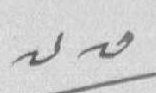༧༧
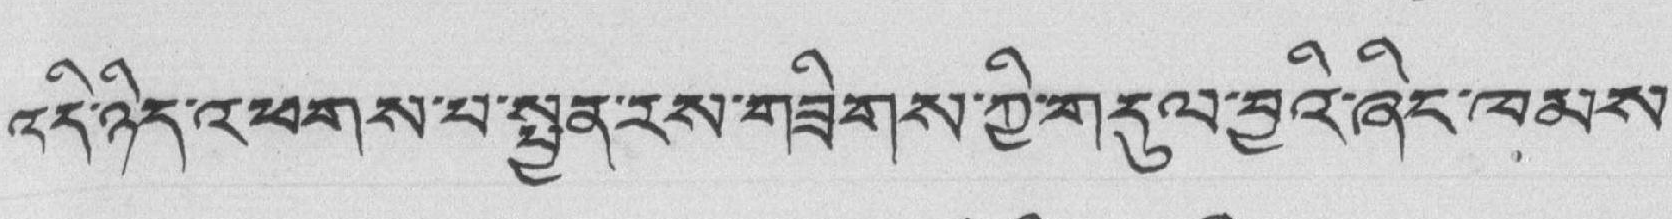འདི་ཉིད་འཕགས་པ་སྦྱན་རས་གཟིགས་ཀྱི་གདུལ་བྱའི་ཞིང་ཁམས་
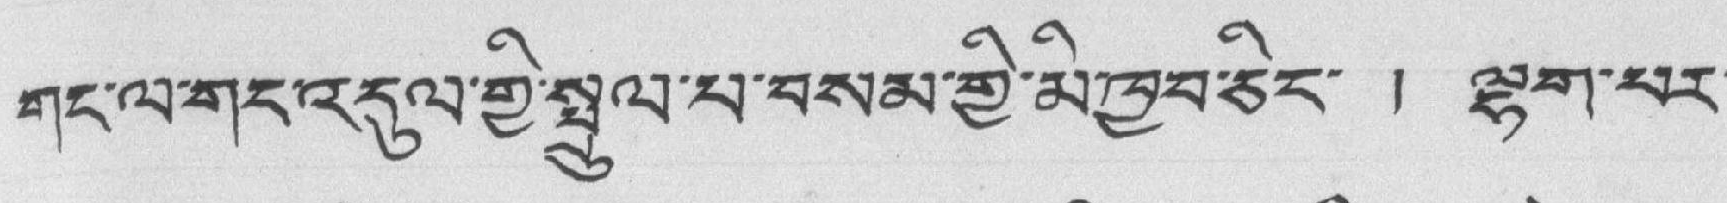གང་ལ་གང་འདུལ་གྱི་སྤྲུལ་བ་བསམ་གྱི་མི་ཁྱབ་ཅིང་ ། ལྷག་པར་
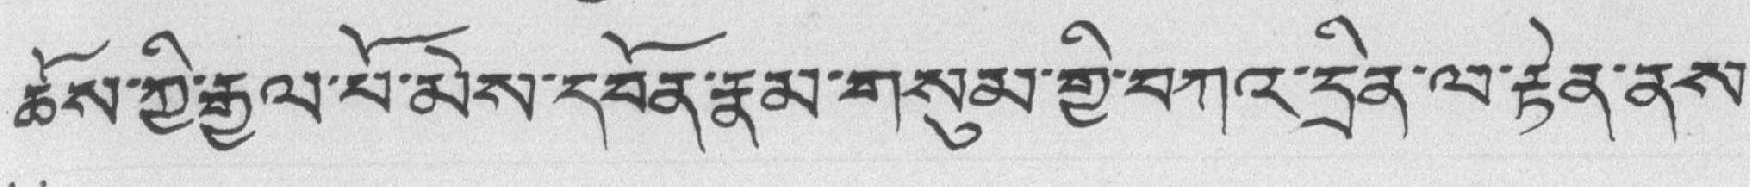ཆོས་ཀྱི་རྒྱལ་པོ་མེས་དཔོན་རྣམ་གསུམ་གྱི་བཀའ་དྲིན་ལ་རྟེན་ནས་
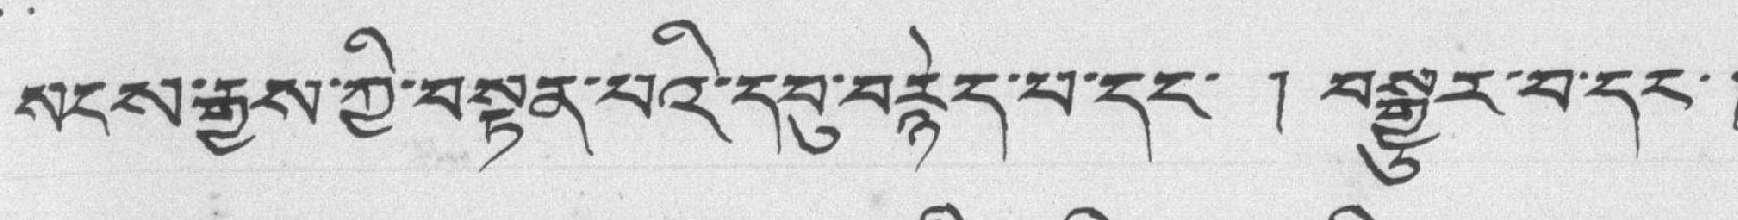སངས་རྒྱུས་ཀྱི་བསྟན་པའི་དབུ་བརྙེད་པ་དང་ ། བསྒྱུར་བ་དང་།
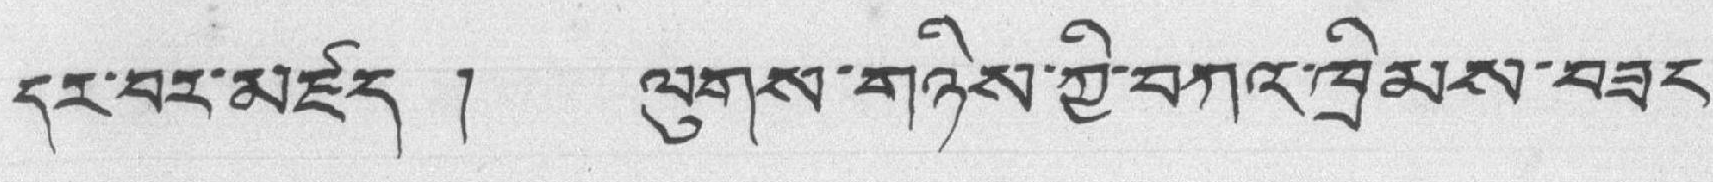དར་བར་མཛད ། ལུགས་གཉིས་ཀྱི་བཀའ་ཁྲིམས་བཟང་
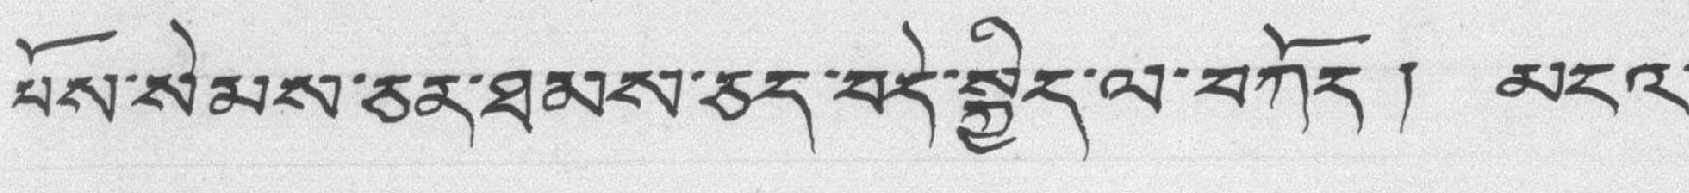པོས་སེམས་ཅན་ཐམས་ཅད་བདེ་སྐྱིད་ལ་བཀོད། མངའ་
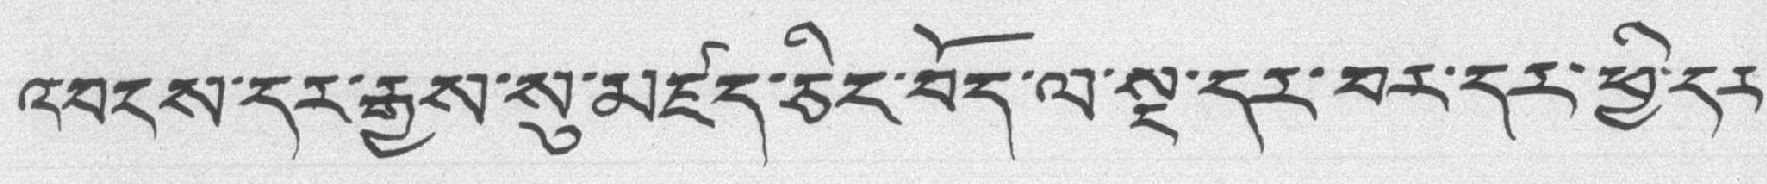འབངས་དར་རྒྱས་སུ་མཛད་ཅིང་བོད་ལ་སྔ་དར་བར་དར་ཕྱི་དར་
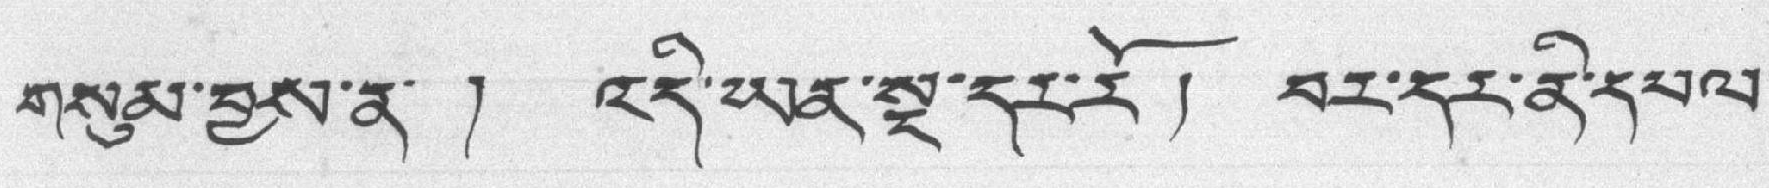གསུམ་བྱས་ན་ ། འདི་ཡན་སྔ་དར་རོ། བར་དར་ནི་དཔལ་
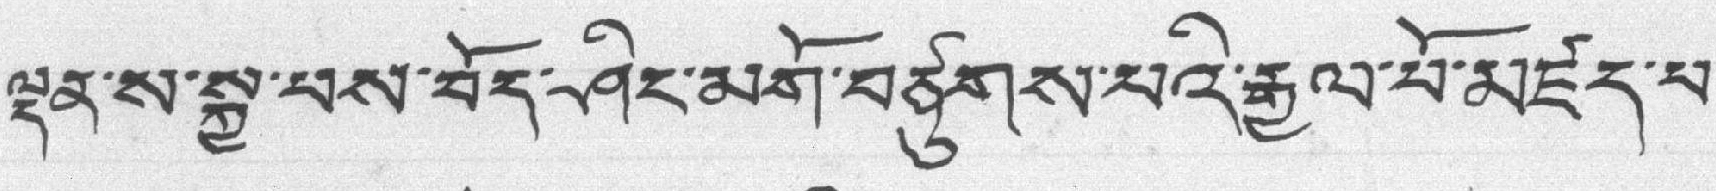ལྡན་ས་སྐྱ་པས་བོད་ཤིང་མགོ་བཙུགས་པའི་རྒྱལ་པོ་མཛད་པ་
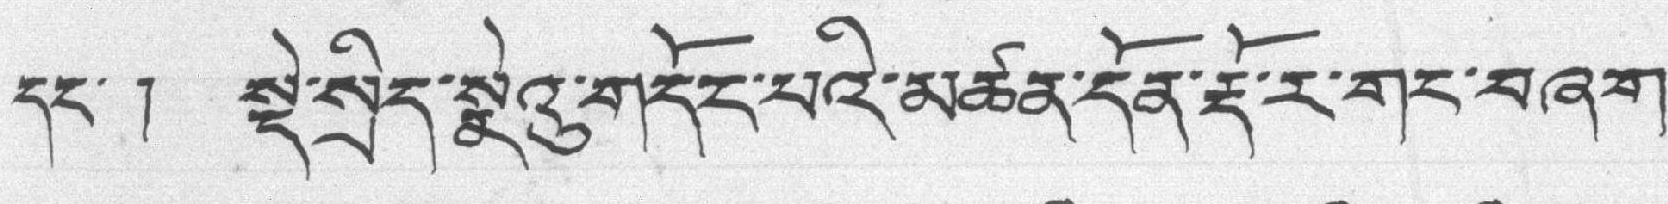དང་། སྡེ་སྲིད་སྣེའུ་གདོང་པའི་མཚན་དོན་རྡོ་ར་གང་བཞག་
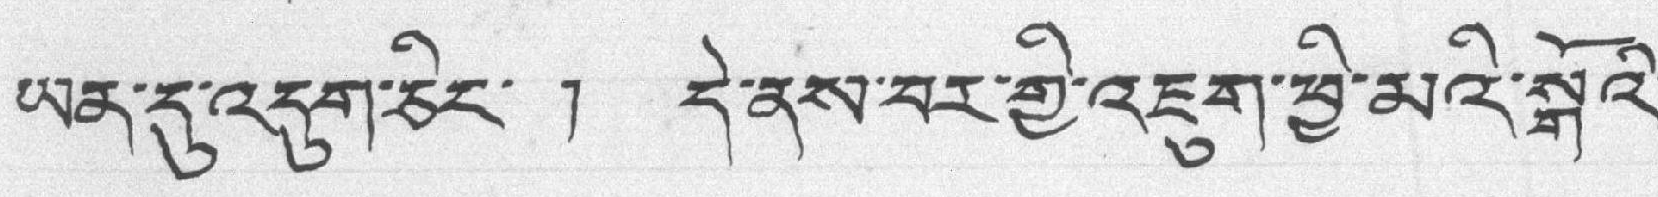ཡན་དུ་འདུག་ཅིང་ ། དེ་ནས་བར་གྱི་འཇུག་ཕྱི་མའི་སྒོའི་
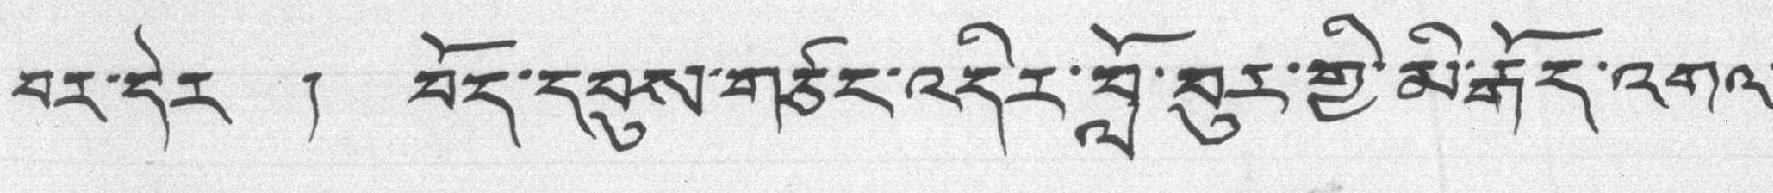བར་དེར ། བོད་དབུས་གཙང་འདིར་བློ་བུར་གྱི་མི་རྒོད་འགའ་
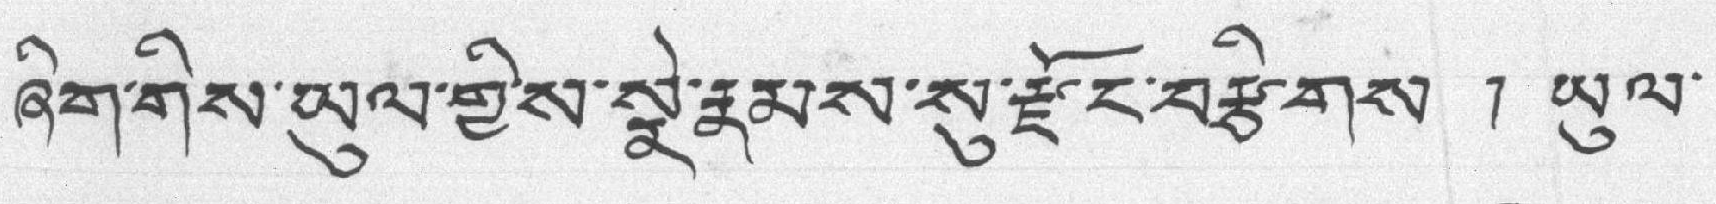ཞིག་གིས་ཡུལ་གྱིས་སྣེ་རྣམས་སུ་རྫོང་བརྩིགས ། ཡུལ་
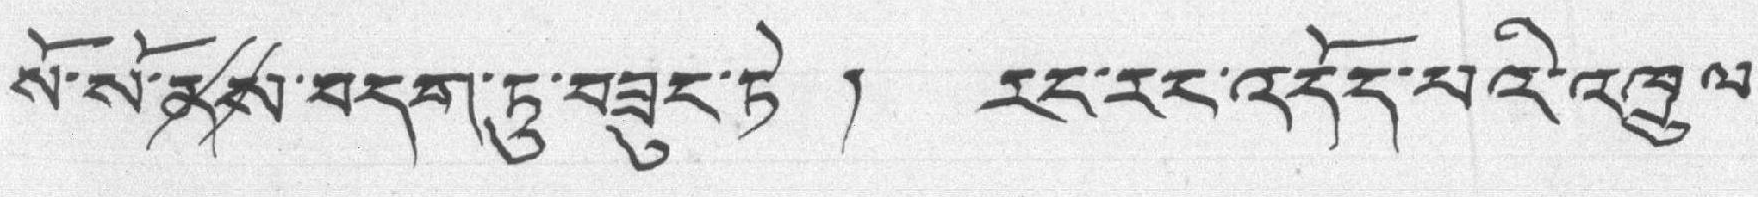སོ་སོ་ནས་བདག་ཏུ་བཟུང་ཏེ ། རང་རང་འདོད་པའི་འཁྲུལ་
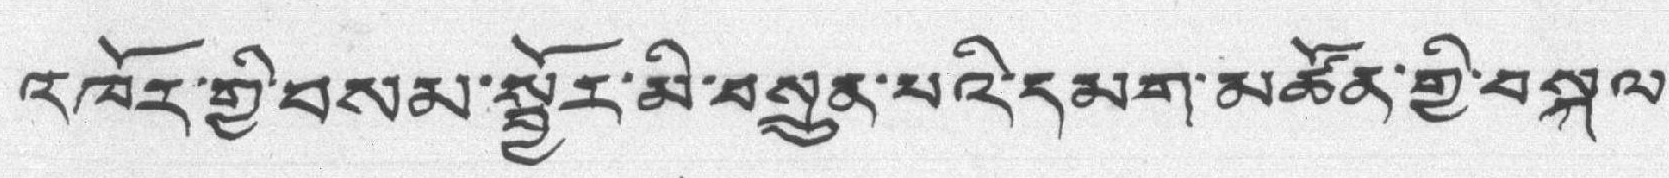འཁོར་གྱི་བསམ་སྦྱོར་མི་བསྲུན་པའི་དམག་མཚོན་གྱི་བསྐུལ་
